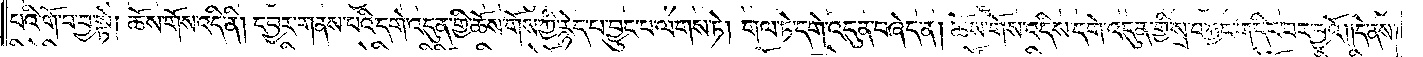པའི་གོ་བ་བྱ་སྟེ། ཆོས་གོས་འདི་ནི། དབྱར་གནས་པའི་དགེ་འདུན་གྱི་ཆོས་གོས་ཀྱི་རྙེད་པ་བྱུང་བ་ལགས་ཏེ། གལ་ཏེ་དགེ་འདུན་བཞེད་ན། ཆོས་གོས་འདིས་དགེ་འདུན་གྱི་སྲ་བརྐྱང་གདིང་བར་བྱའོ། །དེ་ནས་
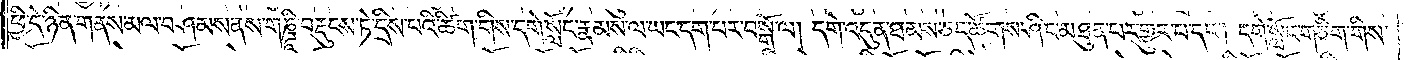ཕྱི་དེ་ཉིན་གནས་མལ་བཤམས་ནས་གཎྜཱི་བརྡུངས་ཏེ་དྲིས་པའི་ཚིག་གིས་དགེ་སློང་རྣམས་ལ་ཡང་དག་པར་བསྒོ་ལ། དགེ་འདུན་ཐམས་ཅད་ཚོགས་ཤིང་མཐུན་པར་གྱུར་པ་དང༌། དགེ་སློང་གཅིག་གིས་
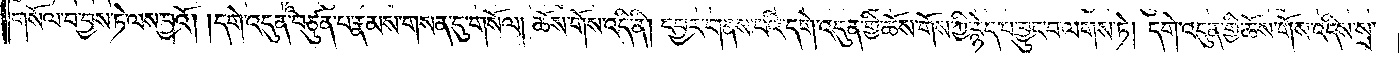གསོལ་བ་བྱས་ཏེ་ལས་བྱའོ། །དགེ་འདུན་བཙུན་པ་རྣམས་གསན་དུ་གསོལ། ཆོས་གོས་འདི་ནི། དབྱར་གནས་པའི་དགེ་འདུན་གྱི་ཆོས་གོས་ཀྱི་རྙེད་པ་བྱུང་བ་ལགས་ཏེ། དགེ་འདུན་གྱི་ཆོས་གོས་འདིས་སྲ་
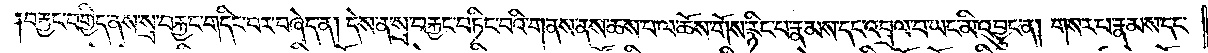བརྐྱང་བགྱིད་ནས་སྲ་བརྐྱང་གདིང་བར་བཞེད་ན། དེས་ན་སྲ་བརྐྱང་བཏིང་བའི་གནས་ནས་ཆས་བ་ལ་ཆོས་གོས་རྙིང་པ་རྣམས་དང་འབྲལ་བ་ཡང་མི་འབྱུང་ན། གསར་པ་རྣམས་དང་
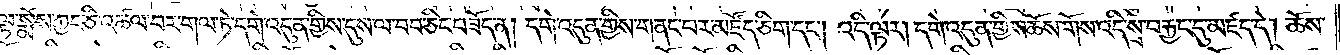ལྟ་སྨོས་ཀྱང་ཅི་འཚལ་བར་གལ་ཏེ་དགེ་འདུན་གྱིས་དུས་ལ་བབ་ཅིང་བཟོད་ན། དགེ་འདུན་གྱིས་གནང་བར་མཛོད་ཅིག་དང༌། འདི་ལྟར། དགེ་འདུན་གྱིས་ཆོས་གོས་འདི་སྲས་བརྐྱང་དུ་མཛད་དེ། ཆོས་
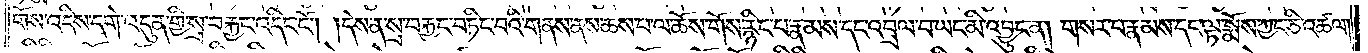གོས་འདིས་དགེ་འདུན་གྱི་སྲ་བརྐྱང་འདིང་ངོ༌། །དེས་ན་སྲ་བརྐྱང་བཏིང་བའི་གནས་ཆས་པ་ལ་ཆོས་གོས་རྙིང་པ་རྣམས་དང་འབྲལ་བ་ཡང་མི་འབྱུང་ན། གསར་པ་རྣམས་དང་ལྟ་སྨོས་ཀྱང་ཅི་འཚལ།
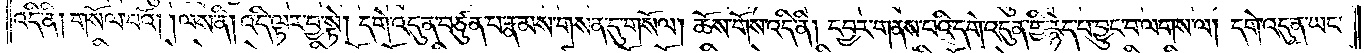འདི་ནི། གསོལ་བའོ། །ལས་ནི་འདིར་ལྟར་བྱ་སྟེ། དགེ་འདུན་བཙུན་པ་རྣམ་གསན་དུ་གསོལ། ཆོས་གོས་འདི་ནི། དབྱར་གནས་པའི་དགེ་འདུན་གྱི་རྙེད་པ་བྱུང་བ་ལགས་ལ། དགེ་འདུན་ཡང་
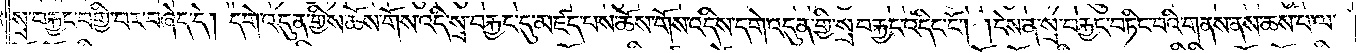སྲ་བརྐྱང་བགྱི་བར་བཞེད་དེ། དགེ་འདུན་གྱིས་ཆོས་གོས་འདི་སྲ་བརྐྱང་དུ་མཛད་པས་ཆོས་གོས་འདིས་དགེ་འདུན་གྱིས་ར་བརྐྱང་འདིང་ངོ༌། །དེས་ན་སྲས་བརྐྱང་བཏིང་བའི་གནས་ནས་ཆས་པ་ལ་
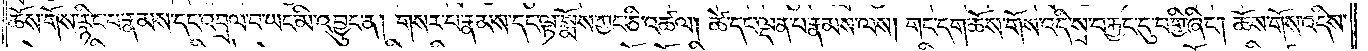ཆོས་གོས་རྙིང་པ་རྣམས་དང་འབྲལ་བ་ཡང་མི་འབྱུང་ན། གསར་པ་རྣམས་དང་ལྟ་སྨོས་ཀྱང་ཅི་འཚལ། ཚེ་དང་ལྡན་པ་རྣམས་ལས། གང་དག་ཆོས་གོས་འདི་སྲས་བརྐྱང་དུ་བགྱི་ཞིང༌། ཆོས་གོས་འདིས་
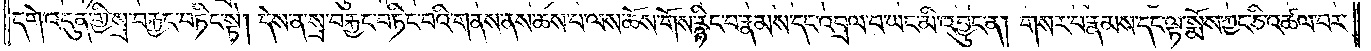དགེ་འདུན་གྱི་སྲ་བརྐྱང་བཏིང་སྟེ། དེས་ན་སྲ་བརྐྱང་བཏིང་བའི་གནས་ནས་ཆས་པ་ལས་ཆོས་གོས་རྙིང་པ་རྣམས་དང་འབྲལ་བ་ཡང་མི་འབྱུང་ན། གསར་པ་རྣམས་དང་ལྟ་སྨོས་ཀྱང་ཅི་འཚལ་བར་
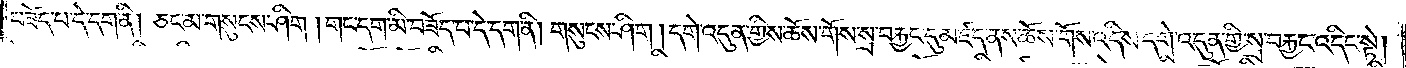བཟོད་པ་དེ་དག་ནི། ཅང་མ་གསུངས་ཤིང༌། གང་དག་མི་བཟོད་པ་དེ་དག་ནི། གསུངས་ཤིག །དགེ་འདུན་གྱིས་ཆོས་གོས་སྲས་བརྐྱང་དུ་མཛད་ནས་ཆོས་གོས་འདིས་དགེ་འདུན་གྱི་སྲས་བརྐྱང་འདིང་སྟེ།
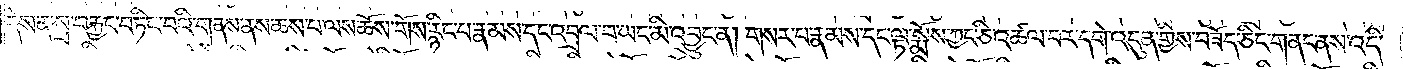དེས་ན་སྲ་བརྐྱང་བཏིང་བའི་གནས་ནས་ཆས་པ་ལས་ཆོས་གོས་རྙིང་པ་རྣམས་དང་འབྲལ་བ་ཡང་མི་འབྱུང་ན། གསར་པ་རྣམས་དང་ལྟ་སྨོས་ཀྱང་ཅི་འཚལ་བར་དགེ་འདུན་གྱིས་བཟོད་ཅིང་གནང་ནས་འདི་
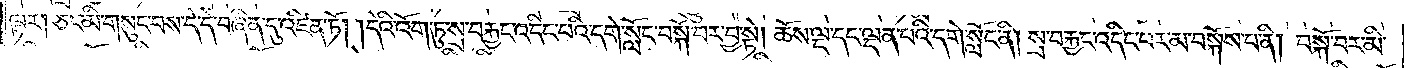ལྟར། ཅང་མི་གསུང་བས་དེ་དེ་བཞིན་དུ་འཛིན་ཏོ། །དེའི་འོག་ཏུ་སྲ་བརྐྱང་འདིང་བའི་དགེ་སློང་བསྐོ་བར་བྱ་སྟེ། ཆོས་ལྔ་དང་ལྡན་པའི་དགེ་སློང་ནི། སྲ་བརྐྱང་འདིང་པར་མ་བསྐོས་པ་ནི། བསྐོ་བར་མི་
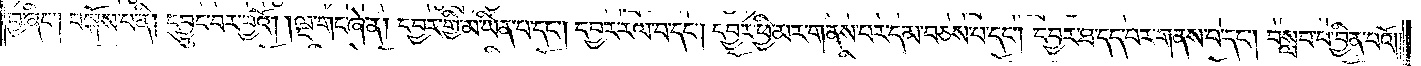བྱ་ཞིང༌། བསྐོས་པ་ནི། དབྱུང་བར་བྱའོ། །ལྔ་གང་ཞེ་ན། དབྱར་གྱི་མ་ཡིན་པ་དང༌། དབྱར་རལ་བ་དང༌། དབྱར་ཕྱི་མར་གནས་པར་དམ་བཅས་པ་དང༌། དབྱར་ཐ་དད་པར་གནས་པ་དང༌། བསླབ་པ་བྱིན་པའོ། །
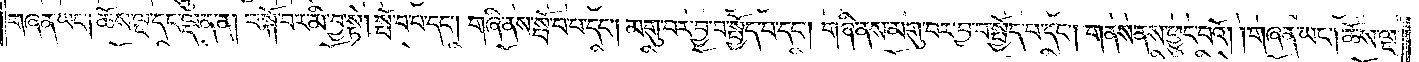གཞན་ཡང༌། ཆོས་ལྔ་དང་ལྡན་ན། བསྐོ་བར་མི་བྱ་སྟེ། སྤོ་བ་པ་དང༌། གཞི་ནས་སྤོ་བ་པ་དང༌། མགུ་བར་བྱ་བ་སྤྱོད་པ་དང༌། གཞི་ནས་མགུ་བར་བྱ་བ་སྤྱོད་བ་དང༌། གནས་ནས་ཕྱུང་བའོ། །གཞན་ཡང༌། ཆོས་ལྔ་
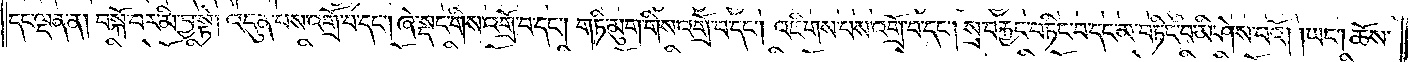དང་ལྡན་ན། བསྐོ་བར་མི་བྱ་སྟེ། འདུན་པས་འགྲོ་བ་དང༌། ཞེ་སྡང་གིས་འགྲོ་བ་དང༌། གཏི་མུག་གིས་འགྲོ་བ་དང༌། འཇིགས་པས་འགྲོ་བ་དང༌། སྲས་བརྐྱང་བཏིང་བ་དང་མ་བཏིང་བ་མི་ཤེས་པའོ། །ཡང༌། །ཆོས་
